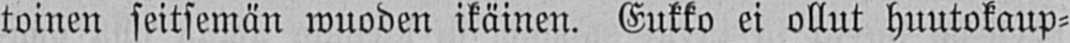toinen seitsemän wuoden ikäinen. Eukko ei ollut huutokaup-
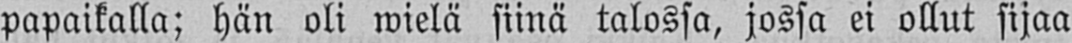papaikalla; hän oli wielä siinä talossa, jossa ei ollut sijaa
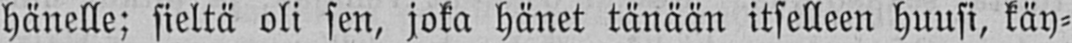hänelle; sieltä oli sen, joka hänet tänään itselleen huusi, käy-
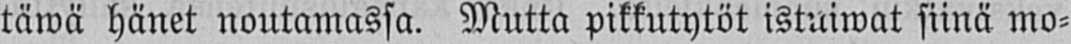täwä hänet noutamassa. Mutta pikkutytöt istuiwat siinä mo-
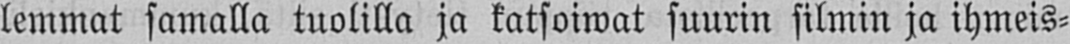lemmat samalla tuolilla ja katsoiwat suurin silmin ja ihmeis-
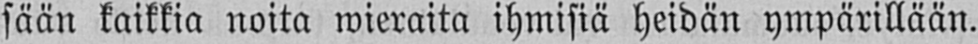sään kaikkia noita wieraita ihmisiä heidän ympärillään.
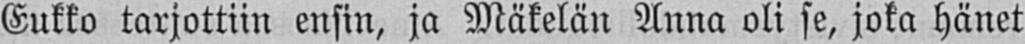Eukko tarjottiin ensin, ja Mäkelän Anna oli se, joka hänet
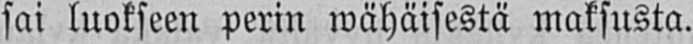sai luokseen perin wähäisestä maksusta.
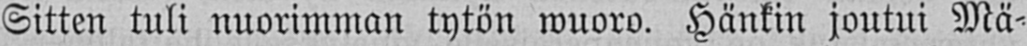Sitten tuli nuorimman tytön wuoro. Hänkin joutui Mä-
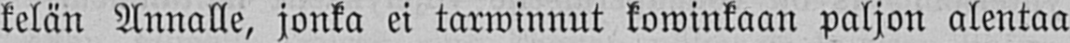kelän Annalle, jonka ei tarwinnut kowinkaan paljon alentaa
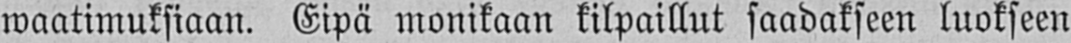waatimuksiaan. Eipä monikaan kilpaillut saadakseen luokseen
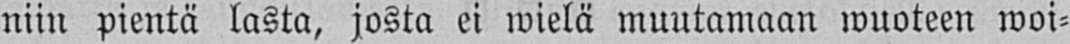niin pientä lasta, josta ei wielä muutamaan wuoteen woi-
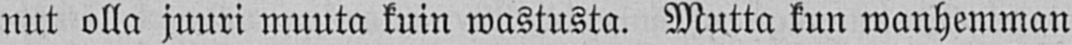nut olla juuri muuta kuin wastusta. Mutta kun wanhemman
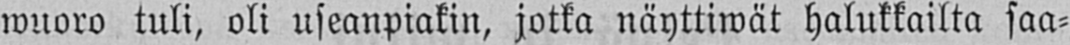wuoro tuli, oli useanpiakin, jotka näyttiwät halukkailta saa-
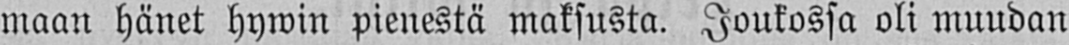maan hänet hywin pienestä maksusta. Joukossa oli muudan
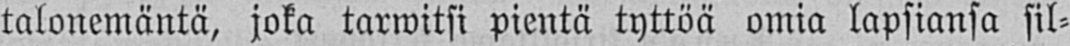talonemäntä, joka tarwitsi pientä tyttöä omia lapsiansa sil-
